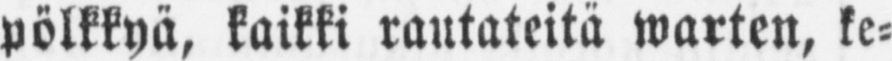pölkkyä, kaikki rautateitä warten, ke-
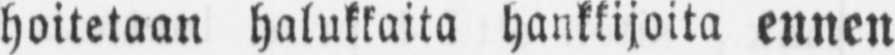hotetaan halukkaita hankkijoita ennen
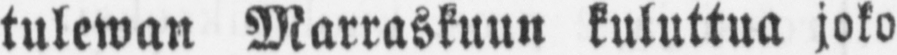tulewan Marraskuun kuluttua joko
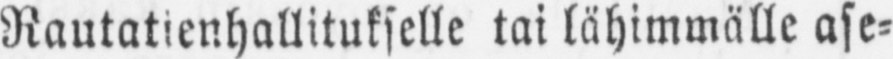Rautatienhallitukselle tai lähimmälle ase-
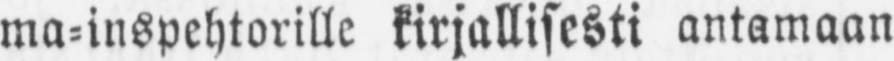ma-inspehtorille kirjallisesti antamaan
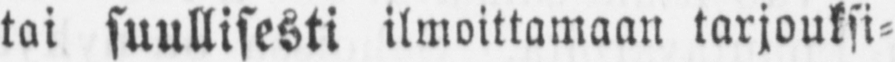tai suullisesti ilmoittamaan tarjouksi-
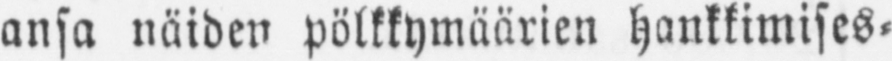ansa näiden pölkkymäärien hankkimises-
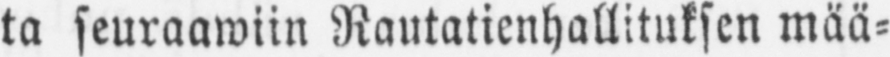ta seuraawiin Rautatienhallituksen mää-
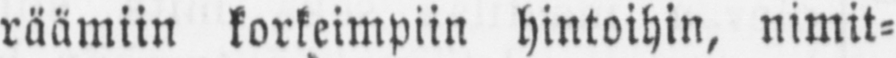räämiin korkeimpiin hintoihin, nimit-
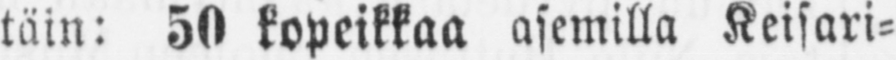täin: 50 kopeikkaa asemilla Keisari-
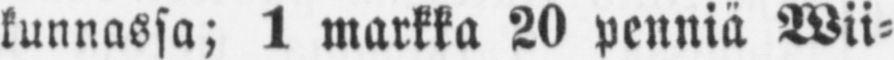kunnassa; 1 markka 20 penniä Wii-
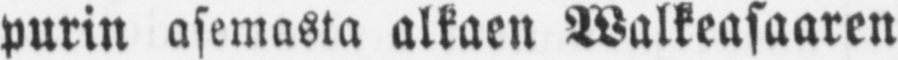purin asemasta alkaen Walkeasaaren
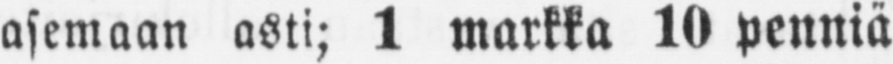asemaan asti; 1 markka 10 penniä
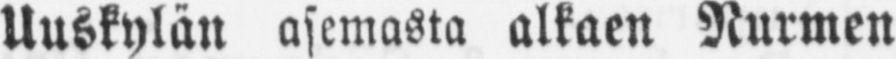Uuskylän asemasta alkaen Nurmen
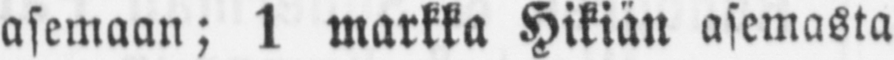asemaan; 1 markka Hikiän asemasta
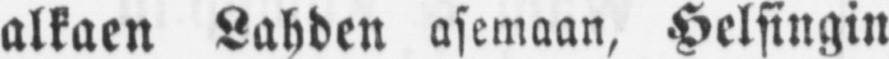alkaen Lahden asemaan, Helsingin
